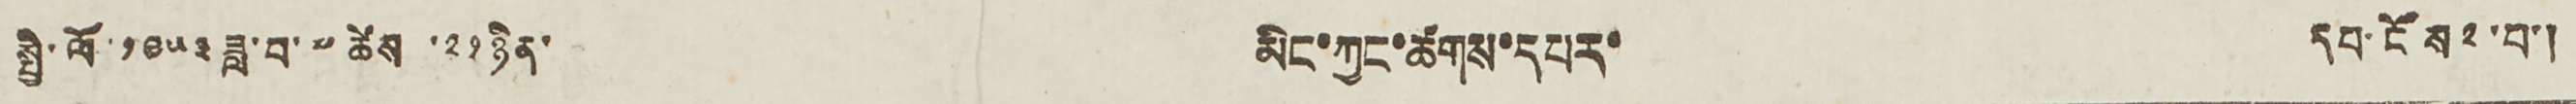སྤྱི་ལོ་ ༡༩༥༣ ཟླ་བ་ ༧ ཚེས ་༢༡ ཉིན་ མིང་ཀྱང་ཚགས་དཔར་ དཔ་ངོས ༢ ་བ་།
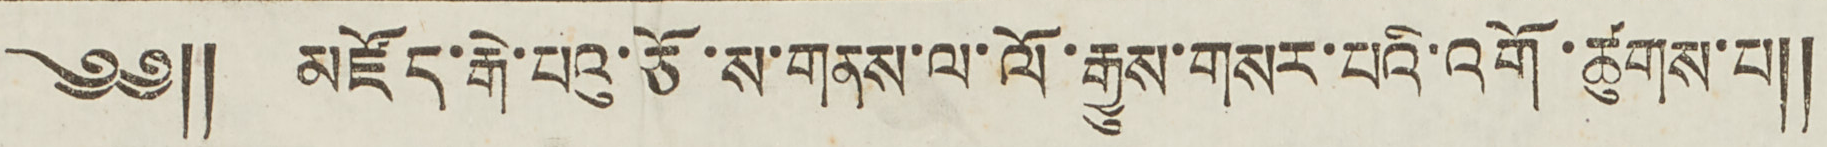༄༅༎ མཛོད་རྒེ་པའུ་ཅོ་ས་གནས་ལ་ལོ་རྒྱུས་གསར་པའི་འགོ་ཚུགས་པ༎
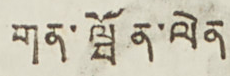གན་ཝོན་ལེན
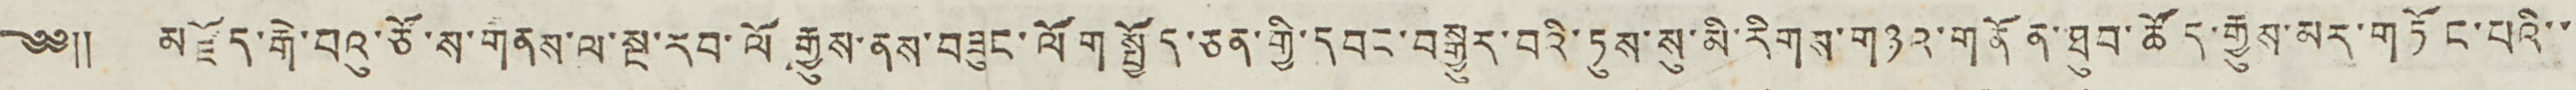༄༅༎ མཛོད་རྒེ་པའུ་ཅོ་ས་གནས་ལ་སྔ་རབ་ལོ་རྒྱུས་ནས་བཟུང་ལོག་སྤྱོད་ཅན་གྱི་དབང་བསྒྱུར་བའི་དུས་སུ་མི་རིགས་གཉའ་གནོན་ཐུབ་ཚོད་རྒྱུག་མར་གཏོང་པའི་་
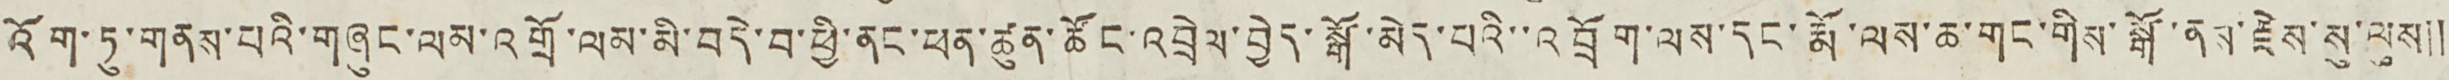འོག་ཏུ་གནས་པའི་གཞུང་ལམ་འགྲོ་ལམ་མི་བདེ་བ་ཕྱི་ནང་ཕན་ཚུན་ཚོང་འབྲེལ་བྱེད་སྒོ་མེད་པའི་་འབྲོག་ལས་དང་རྨོ་ལས་ཆ་གང་གིས་སྒོ་ནས་རྗེས་སུ་ལུས༎
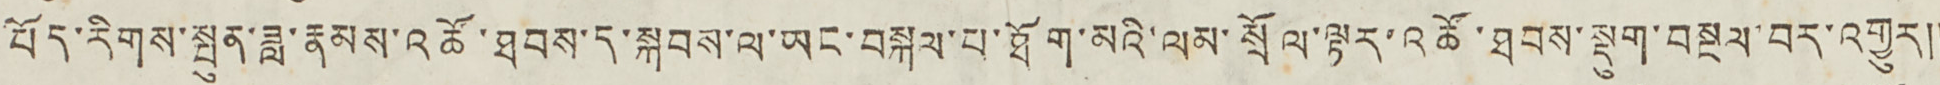བོད་རིགས་སྤུན་ཟླ་རྣམས་འཚོ་ཐབས་ད་སྐབས་ལ་ཡང་བསྐལ་བ་ཐོག་མའི་ལམ་སྲོལ་ལྟར་འཚོ་ཐབས་སྡུག་བསྔལ་བར་འགྱུར༎
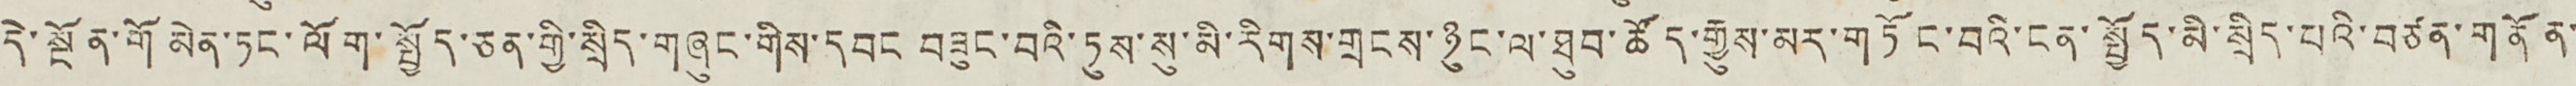དེ་སྔོན་གོ མེན་ཏང་ལོག་སྤྱོད་ཅན་གྱི་སྲིད་གཞུང་གིས་དབང བཟུང་བའི་ཏུས་སུ་མི་རིགས་གྲངས་ཉུང་ལ་ཐུབ་ཚོད་རྒྱུས་མར་གཏོང་བའི་ངན་སྤྱོད་མི་སྲིད་པའི་བཙན་གནོན་
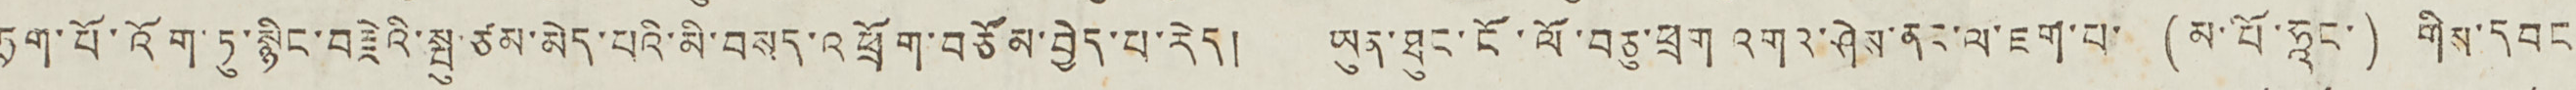ཏྲག་པོ་འོག་ཏུ་སྙིང་བརྗེའི་སྤུ་ཙམ་མེད་པའི་མི་བསད་འཕྲོག་བཙོམ་བྱེད་པ་རེད། ཡུན་ཐུང་ངོ་ལོ་བཅུ་ཕྲག འགའ ཤེས་ནང་ལ་ཇག་པ་ (མ་པོ་ཧཱང་) གིས་དབང་
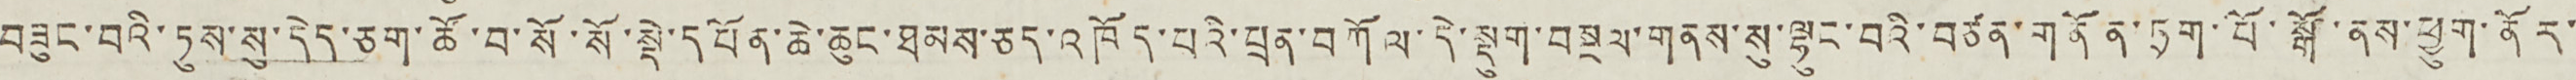བཟུང་བའི་ཏུས་སུ་དེད་ཅག་ཚོ་བ་སོ་སོ་སྡེ་དཔོན་ཆེ་ཆུང་ཐམས་ཅད་འཁོད་པའི་པྲན་བཀོལ་དེ་སྡུག་བསྔལ་གནས་སུ་ལྷུང་བའི་བཙན་གནོན་ཏྲག་པོ་སྒོ་ནས་ཕྱུག་ནོར་
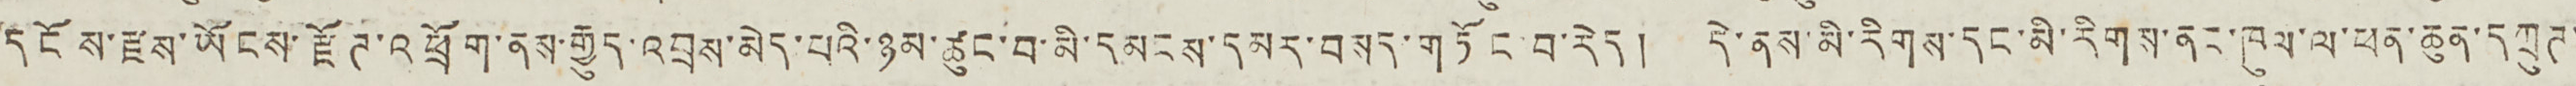དངོས་རྫས་ཡོངས་རྫོཊ་འཕྲོག་ནས་རྒྱུད་འབྲས་མེད་པའི་ཉམ་ཚུང་བ་མི་དམངས་དམར་བསད་གཏོང་བ་རེད། དེ་ནས་མི་རིགས་དང་མི་རིགས་ནང་ཁུལ་ལ་ཕན་ཆུན་དཀྲུཊ་
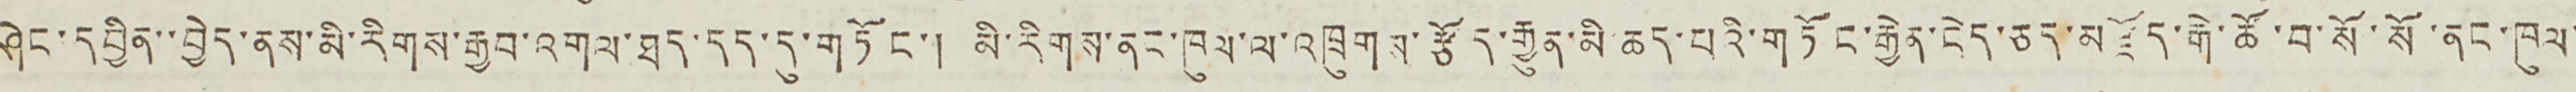ཤེང་དབྱིན་་བྱེད་ནས་མི་རིགས་རྒྱབ་འགལ་ཐད་དད་དུ་གཏོང་། མི་རིགས་ནང་ཁུལ་ལ་འཁྲུགས་རྩོད་རྒྱུན་མི ཆད་པའི་གཏོང་རྒྱེན་ངེད་ཅད་མཛོད་རྒེ་ཚོ་བ་སོ་སོ་ནང་ཁུལ་
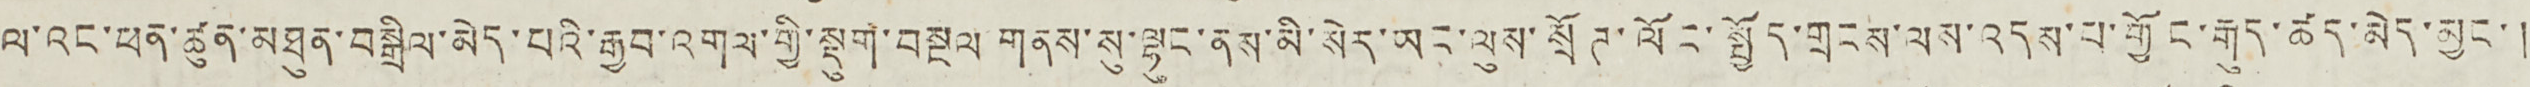ལ་འང་ཕན་ཚུན་མཐུན་བསྒྲིལ་མེད་པའི་རྒྱབ་འགལ་གྱི་སྡུག་བསྔལ གནས་སུ་ལྷུང་ནས་མི་སེར་ཡང་ལུས་སྲོཊ་ལོང་སྤྱོད་གྲངས་ལས་འདས་པ་གྱོང་རྒུད་ཚད་མེད་མྱང་།
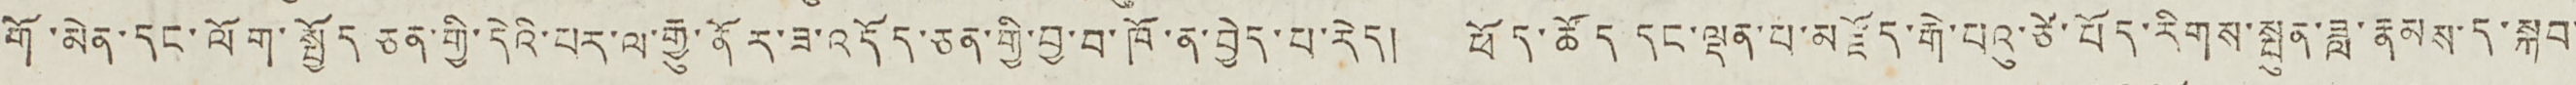གོ་མེན་དང་ལོག་སྤྱོད ཅན་གྱི་དེའི་པར་ལ་རྒྱུ་ནོར་ཟ་འདོད་ཅན་གྱི་བྱ་བ་ཁོ་ན་བྱེད་པ་རེད། ཕོད་ཚོད དང་ལྡན་པ་མཛོད་རྒེ་པའུ་ཙེ་བོད་རིགས་སྤུན་ཟླ་རྣམས་ད་སྐབ་
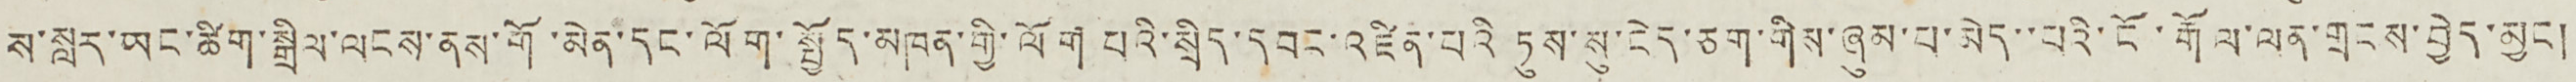ས་སླར་ཡང་ཚིག་སྒྲིལ་ལངས་ནས་གོ་མེད་དང་ལོག་སྤྱོད་མཁན་གྱི་ལོག པའི་སྲིད་དབང་འཛིན་པའི ཏུས་སུ་ངེད་ཅག་གིས་ཞུམ་པ་མེད་་པའི་ངོ་རྒོལ་ལན་གྲངས་བྱེད་མྱང།
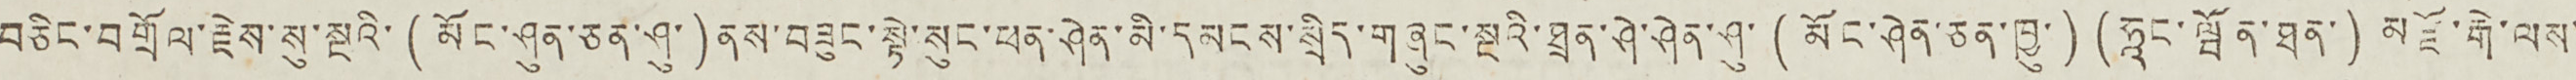བཅིང་བགྲོལ་རྗེས་སུ་སྔའི་ (མོང་ཤུན་ཅན་ཤུ་) ནས་བཟུང་སྟེ་སུང་ཕན་ཤེན་མི་དམངས་སྲིད་གཞུང་སྔའི་ཐྲན་ཤེ་ཤེན་ཤུ་ (མོང་ཤེན་ཅན་ཁྱུ་) (ཧཱང་ཝོན་ཐན་) མཛོ་རྒེ་ལས་
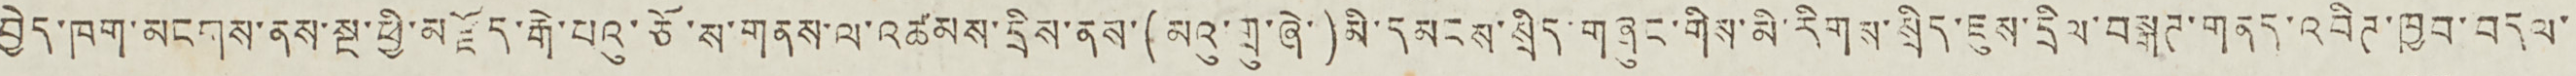བྱེད་ཁག་མངགས་ནས་སྔ་ཕྱི་མཛོད་རྒེ་པའུ་ཅོ་ས་གནས་ལ་འཚམས་དྲིས་ནས་(མའུ་གྲུ་ཞེ་)མི་དམངས་སྲིད་གཞུང་གིས་མི་རིགས་སྲིད་ཇུས་དྲིལ་བསྒཊ་གནད་འབིཊ་ཁྱབ་བདལ་
